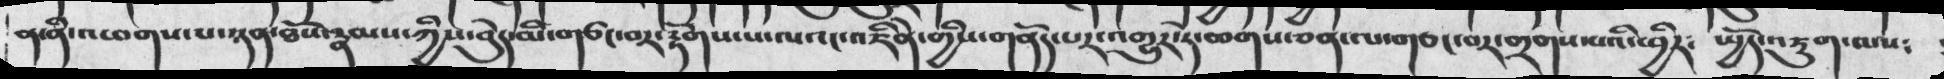ན་ནི་འཕགས་པ་ཉན་ཐོས་རྣམས་ཀྱིས་བེུད་མི་གཙང་བར་རྟོགས་པ་ལའང་འཇིེན་གྱིས་གནོད་པར་འགྱུར་ཏེ་ཆགས་ཅན་ལ་གཙང་བར་གྲགས་པའི་ཕྱིར༴ སྤྱོད་འཇུག་ལས༴
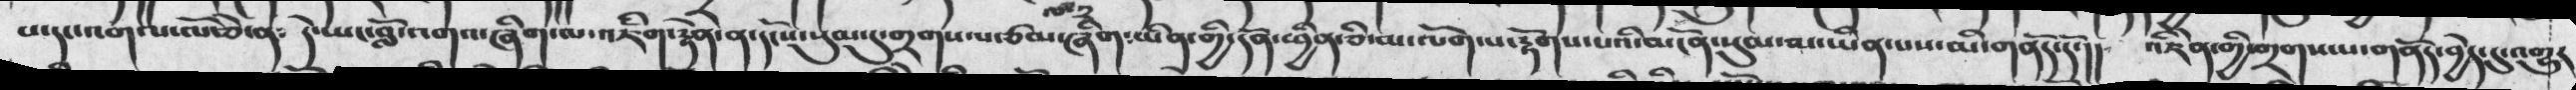པ་དང་འགའ་ལོ་ཆེ་ན༴  དེ་ཡང་བློ་འགའ་ཞིག་ལ་འཇིག་རྟེན་ན་དངོས་སུམ་དུ་གྲགས་པ་ཙམ་ཞིག༴ཡིན་གྱི་དོན་ཕྱིན་ཅི་མ་ལོག་པ་རྟོགས་པའི་མངོན་སུམ་མ་ཡིན་པས་མི་གནོད་དོ་།།  འཇིེན་གྱི་གྲགས་པ་གནོད་བྱེད་དུ་འགྱུར
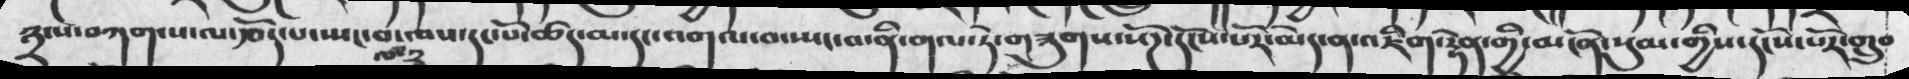༢་པ་བཀག་པ་ལ་རྩོད་པ་ཡང་བ་ལས་དང་པོ་ཚད་མ་དང་འགལ་བ་ཡང་བ་ནི་གལ་ཏེ་གཟུགས་སོཌ་དངོས་པོར་མེད་ན་འཇིག་རྟེན་གྱི་མངོན་སུམ་གྱིས་དངོས་པོར་གྲུབ
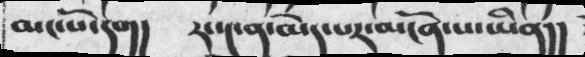མང་པོ་དག། རང་༤ན་མེད་པར་མངོན་པ་ཡིན།།
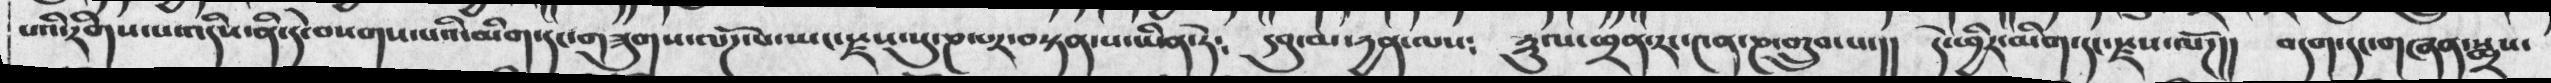པའི་རིགས་པ་འདིས་ནི་དེ་བསགས་པའི་མིག་དང་གཟུགས་ལོཌ་པ་ཡང་སྫས་སུ་ཎ་པར་བསྟན་པ་ཡིན་ཏེ༴ དབུ་མ་དྱན་ལས༴  རྡུལ་ཕྲན་རང་༤ན་ཎ་གྲུབ་པ་།། དེ་ཕྱིར་མིག་དང་སྫས་ལོཌ།། བདག་དང་གཞན་སྨྲས་
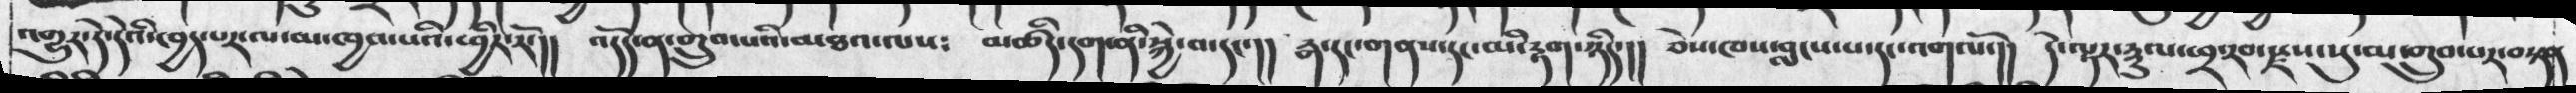འགྱུར་ཏེ་དེའི་ཁྱད་པར་ལ་མ་ཁྱབ་པའི་ཕྱིར་རོ་།། འདོད་ན་གྲུབ་པའི་མཐའ་ལས༴ མཚིད་དག་ནི་སྐྱེ་བ་དང་།། རྒ་དང་གནས་དང་མི་རྟག་ཉིད་།། ཅེས་ཁས་བླངས་པ་དང་འགལོ་།། དེ་ལྟར་རྡུལ་ཕྲ་རབ་སྫས་སུ་མ་གྲུབ་པར་བསྟན
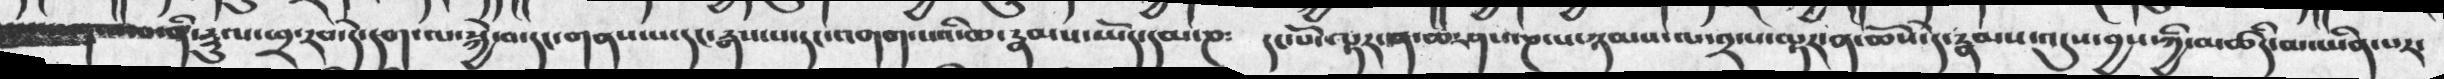ནི་རྡུལ་ཕྲ་རབ་དེ་དག་ལ་སྐྱེ་བ་དང་གནས་པ་དང་རྒས་པ་དང་འགག་པའི་ཆ་རྣམས་ཡོད་དམ་ཎ༴  དང་པོ་ལྟར་ན་ཆ་ཤས་ཎ་པ་ཉམས་ལ་༢་པ་ལྟར་ན་ཆོས་དེ་རྣམས་འདུས་བྱས་ཀྱི་མཚིད་མ་ཡིན་པར་
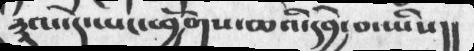རྡུལ་དེ་ཡང་ཕྱོགས་ཆའི་དབྱེ་བ་ཡིས།།
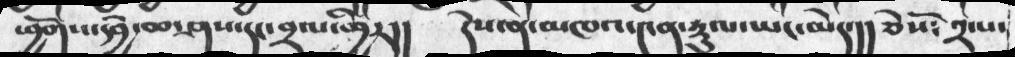ཕྱོགས་དབྱེ་ཆ་ཤས་དང་བྲལ་ཕྱིར།། དེས་ན་མཁའ་༤ན་རྡུལ་ཡང་མེད་།། ཅེསོ༴ ༢་པ་
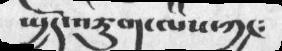སྤྱོད་འཇུག་ལས་ཀྱང༴
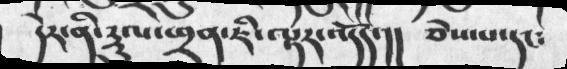དེར་ནི་རྡུལ་ཕྲན་ཇི་ལྟར་འདོད་།། ཅེས་པ་དང༴
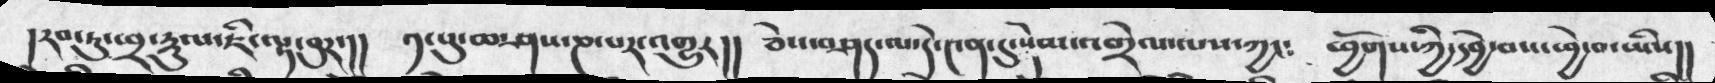།རབ་ཏུ་ཕྲ་རྡུལ་ཇི་ལྟ་བུར་།། ༡་པུ་ཆ་ཤས་ཎ་པར་འགྱུར།། ཅེས་བཤད་ལ་དེ་༤ན་དུ་སེམ་འགྲེལ་ལས་ཀྱང༴ ཕྱོགས་ཀྱི་དབྱེ་བས་ཕྱེ་བ་ཡིས།།
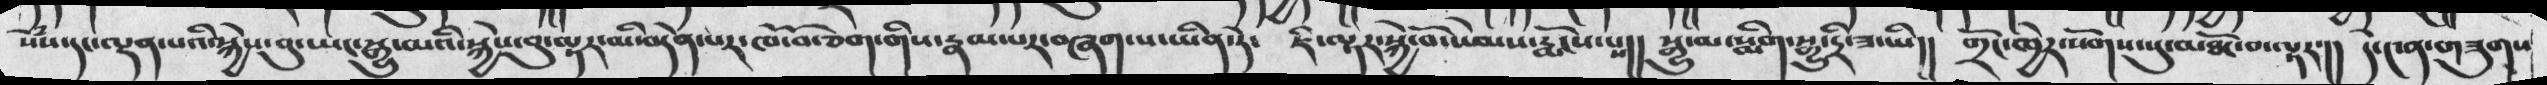སེཾས་དང་ལྡན་པའི་སྐྱེས་བུ་ཡང་སྒྱུ་མའི་སྐྱེས་བུ་ལྟར་མི་བདེན་པར་ཁོ་བོ་ཅིག་གིས་རྣམ་པར་བཞག་པ་ཡིན་ཏེ་  ཇི་ལྟར་སྐྱེ་བོ་སེམས་རྨོངས་པས།།  སྒྱུ་མ་སྨིག་སྒྱུ་དྲི་ཟ་ཡི།།  གྲོང་ཁྱེར་སོགས་སུ་མཐོང་བ་ལྟར་།།   དེ་༤ན་གཟུགས
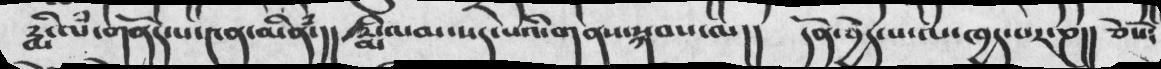རྨི་ལཾ་གནོད་པ་༤ན་མིནཾ་།། རྨི་ལམ་སད་པའི་གནས་སྐབས་ལ།། དོན་བྱེད་པ་ལ་ཁྱད་པར་ཎ།། ཅེསོ༴
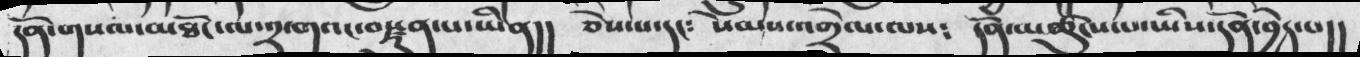དོན་གསལ་མཐོང་ལ་༢་གའང་བསྫུན་པ་ཡིན།། ཅེས་པ་དང༴ སེམས་འགྲེལ་ལས༴ དོན་མཚུངས་པ་ཡིས་དོན་བྱེད་པ།།
